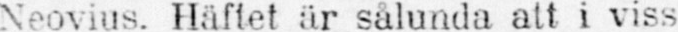Neovius. Häftet är sålunda att i viss
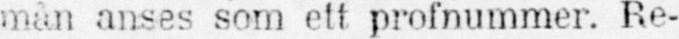mån anses som ett profnummer. Re-
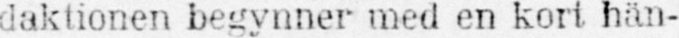daktionen begynner med en kort hän-
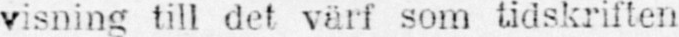visning till det värf som tidskriften
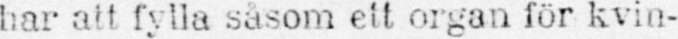har att fylla såsom ett organ för kvin-
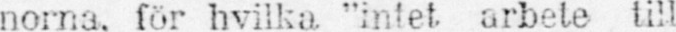norna, för hvilka “intet arbete till
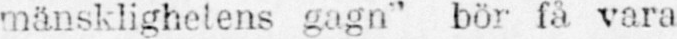mänsklighetens gagn“ bör få vara
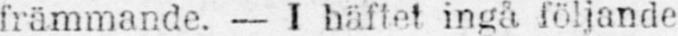främmande. — I häftet ingå följande
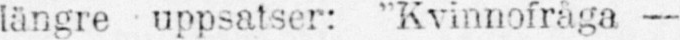längre uppsatser: “Kvinnofråga —
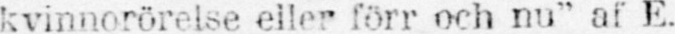kvinnorörelse eller förr och nu“ af E.
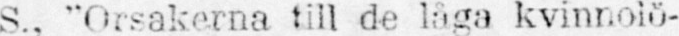S., “Orsakerna till de låga kvinnolö-
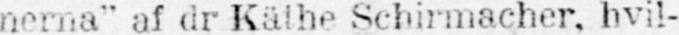nerna“ af dr Käthe Schirmacher, hvil-
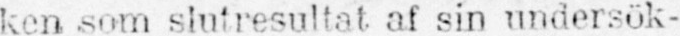ken som slutresultat af sin undersök-
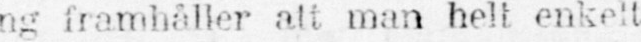ning framhåller att man helt enkelt
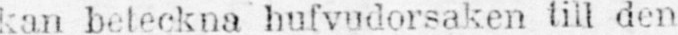kan beteckna hufvudorsaken till den
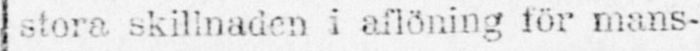stora skillnaden i aflöning för mans-
